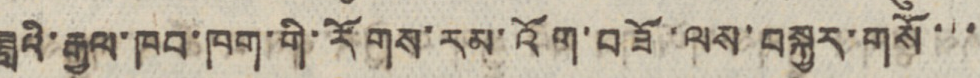ཟླའི་རྒྱལ་ཁབ་ཁག་གི་རོགས་རམ་འོག་བཟོ་ལས་བསྐྱར་གསོ་་་
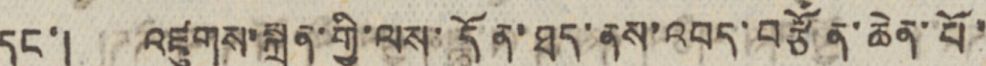དང་། འཛུགས་སྐྲུན་ཀྱི་ལས་དོན་ཐད་ནས་འབད་བརྩོན་ཆེན་པོ་
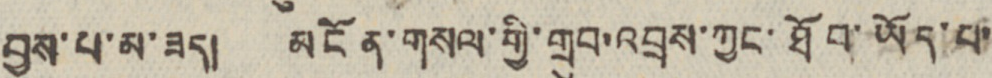བྱས་པ་མ་ཟད། མངོན་གསལ་གྱི་གྲུབ་འབྲས་ཀྱང་ཐོབ་ཡོད་པ་
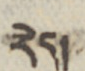རེད།
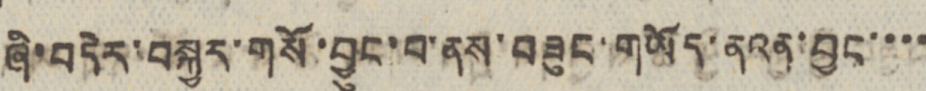ཞི་བདེར་བསྐྱར་གསོ་བྱུང་བ་ནས་བཟུང་གཡོད་ནའན་བྱང་་་་
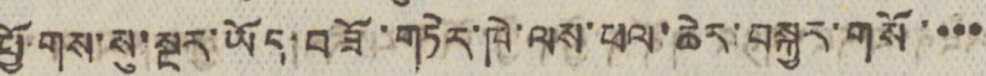ཕྱོགས་སུ་སྔར་ཡོད་བཟོ་གཏེར་ཁེ་ལས་ཕལ་ཆེར་བསྐྱར་གསོ་་་་
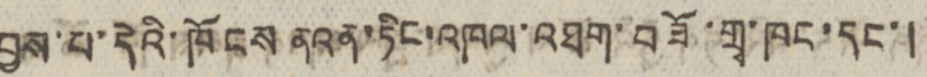བྱས་པ་དེའི་ཁོངས ནའན་ཏིང་འཁལ་འཐག་བཟོ་གྲྭ་ཁང་དང་།
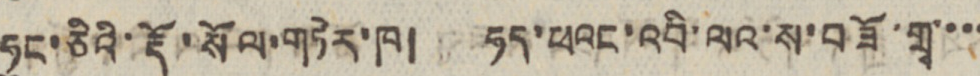ཧུང་ཅིའི་རྡོ་སོལ་གཏེར་ཁ། ཧད་ཕའང་འབི་ལའ་ས་བཟོ་གྲྭ་་་་
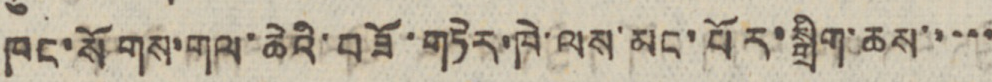ཁང་སོགས་གལ་ཆེའི་བཟོ་གཏེར་ཁེ་ལས་མང་པོར་སྒྲིག་ཆས་་་་་
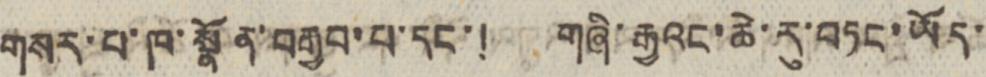གསར་པ་ཁ་སྣོན་བརྒྱབ་པ་དང་། གཞི་རྒྱའང་ཆེ་རུ་བཏང་ཡོད་
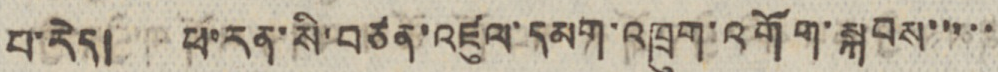པ་རེད། ཕ་རན་སི་བཙན་འཛུལ་དམག་འཁྲུག་འགོག་སྐབས་་་་་
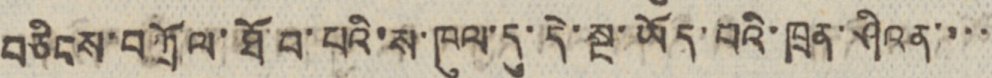བཅིངས་བཀྲོལ་ཐོབ་པའི་ས་ཁུལ་དུ་དེ་སྔ་ཡོད་པའི་ཁྲན་ཤིའན་་་་
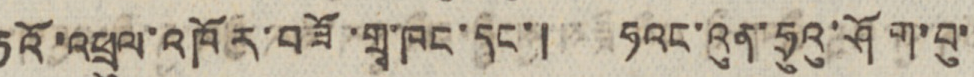ཏའོ་འཕྲུལ་འཁོར་བཟོ་གྲྭ་ཁང་དང་། ཧའང་འུན་ཧྲུའུ་ཤོག་བུ་་
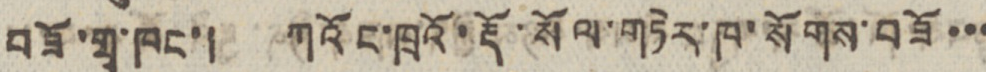བཟོ་གྲྭ་ཁང་། ཀའོང་ཁྲའོ་རྡོ་སོལ་གཏེར་ཁ་སོགས་བཟོ་་་
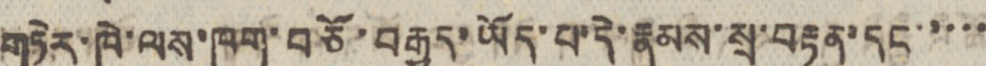གཏེར་ཁེ་ལས་ཁག་བཙོ་བརྒྱད་ཡོད་པ་དེ་རྣམས་སྲ་བརྟན་དང་་་་་
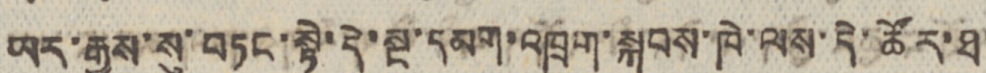ཡར་རྒྱས་སུ་བཏང་སྟེ་དེ་སྔ་དམག་འཁྲུག་སྐབས་ཁེ་ལས་དེ་ཚོར་ཐ་
